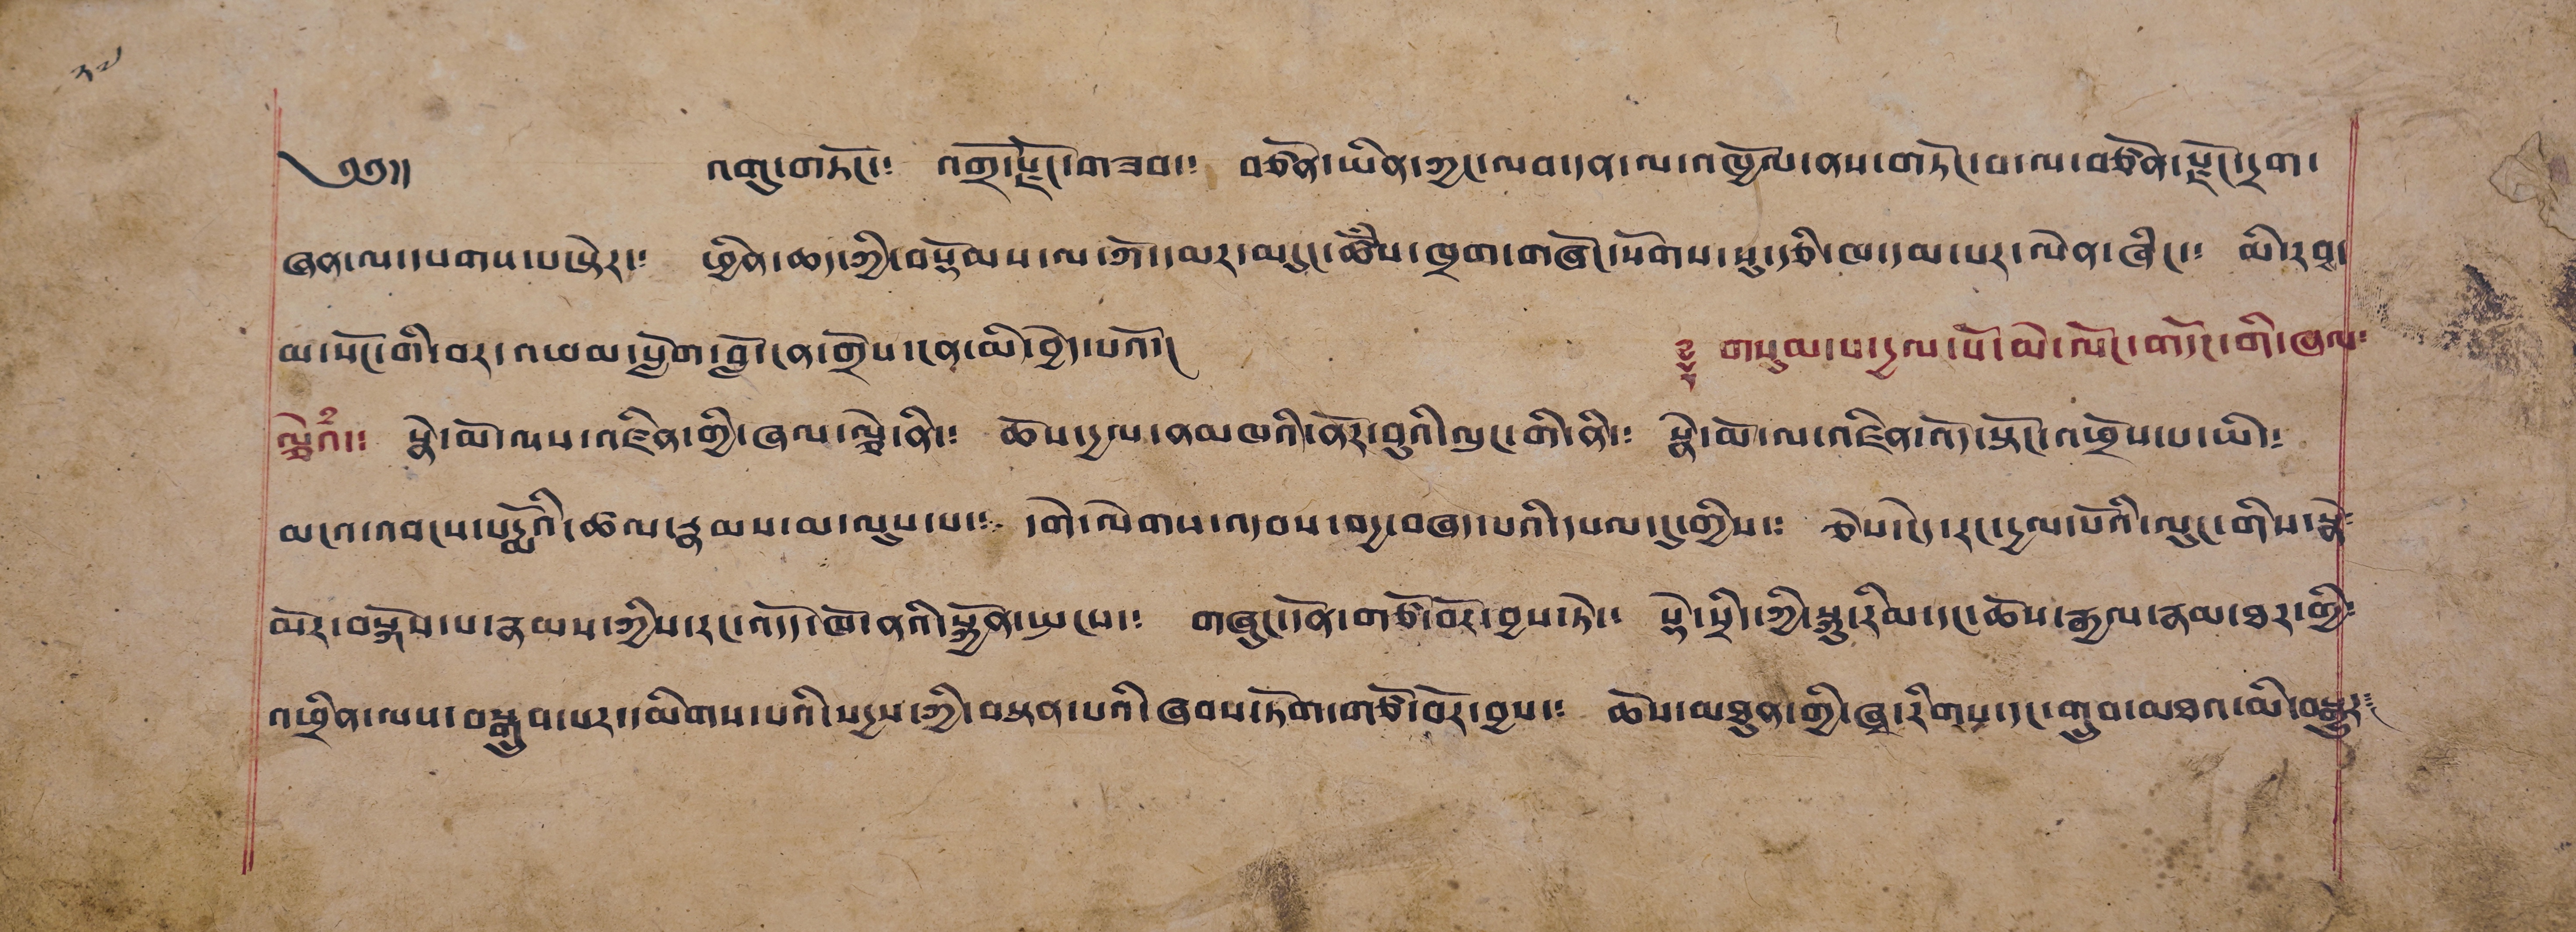༢༧
༄༅།། འགུ་གཏོང་༴ འགྲོ་རྫོང་གཟབ་༴ བཙོན་ཡིན་ཀྱང་ལབ་དན་ལ་འཁྱོལ་ནས་གཏོང་བ་ལ་བཙོན་རྫོང་དྲག་
ཞན་ལ་དཔགས་པ་སྟེར་༴ ཕྱིན་ཆད་ཀྱི་བསྡོམས་ལ་ཀོ་དམར་མདུང་ཚོགས་ཁྲག་གཞོང་སོགས་སུ་རྩི་ཁ་དམ་པར་ལེན་ཞིང་༴ མི་རབས་
མ་སོང་གི་བར་འཕམ་སློག་བློ་ངན་གྲོས་ངན་མི་བྱེད་པའོ་།  ༈ གསུམ་པ་དྱལ་པོ་མེ་ལེང་གདོང་གི་ཞལ་
ལྕེའཾ་། སྣེ་མོ་ལས་འཛིན་གྱི་ཞལ་ལྕེ་ནི་༴ ཆོས་དྱལ་ནམཁའི་ནོར་བུའི་ལུང་གི་ནི་༴ སྣེ་མོ་ལ་འཛིན་འོད་སྟོང་འཕྲོས་པ་ཡི་༴
མངའ་འབངས་པདྨོའི་ཚལ་རྣམས་མ་ལུས་པ་༴ དགེ་ལེགས་འདབས་བདྱ་བཞད་པའི་དཔལ་དུ་གྱིས་༴ ཅེས་ངེད་རང་དྱལ་པོའི་ལུང་གིས་སྣེ༴
མོར་བསྐོས་པ་རྣམས་ཀྱིས་རང་འདོད་ཁོ་ནའི་སྐྱོན་སྤངས་༴ གཞུང་དོན་གཙོ་བོར་བྱས་ཏེ་༴ སྡེ་སྲིད་ཀྱི་སྐྱ་རིམ་དང་ཆོས་རྒྱལ་རྣམ་ཐར་གྱི༴
འཕྲིན་ལས་བསྒྲུབ་པར་དམིགས་པའི་སདྱས་ཀྱི་བསྟན་པའི་ཞབས་ཏོག་གཙོ་བོར་བྱས་༴ ཆོས་མཐུན་གྱི་ཞྭ་རིགས་དང་གྲུབ་མཐའ་མི་བསྒྱུར༴
